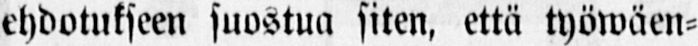ehdotukseen suostua siten, että työwäen-
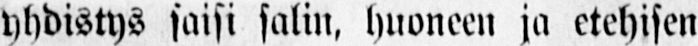yhdistys saisi salin, huoneen ja etehisen
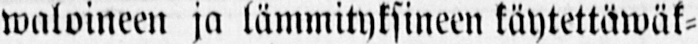waloineen ja lämmityksineen käytettäwäk-
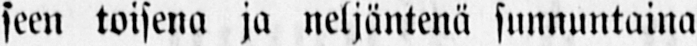seen toisena ja neljäntenä sunnuntaina
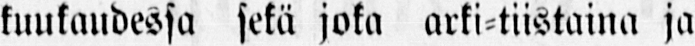kuukaudessa sekä joka arki-tiistaina ja
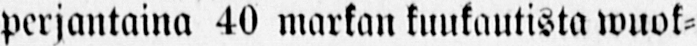perjantaina 40 markan kuukautista wuok-
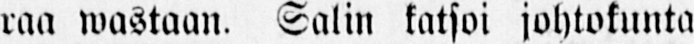raa wastaan. Salin katsoi johtokunta
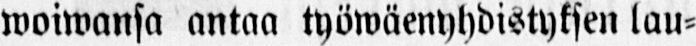woiwansa antaa työwäenyhdistyksen lau-
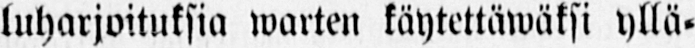luharjoituksia warten käytettäwäksi yllä-
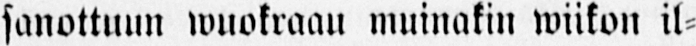sanottuun wuokraau muinakin wiikon il-
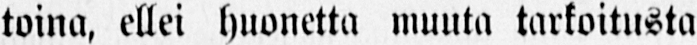toina, ellei huonetta muuta tarkoitusta
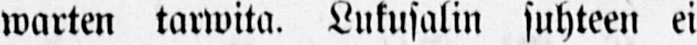warten tarwita. Lukusalin suhteen ei
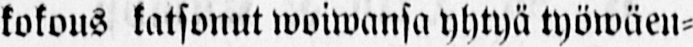kokous katsonut woiwansa yhtyä työwäen-
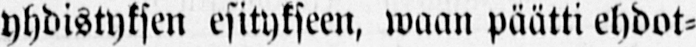yhdistyksen esitykseen, waan päätti ehdot-
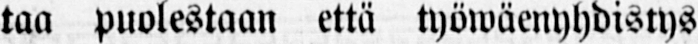taa puolestaan että työwäenyhdistys
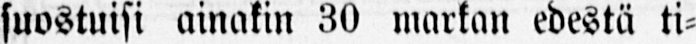suostuisi ainakin 30 markan edestä ti-
